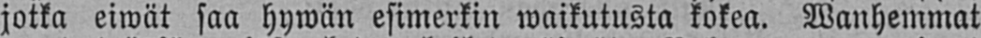jotka eiwät saa hywän esimerkin waikutusta kokea. Wanhemmat
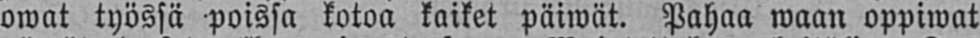owat työssä poissa kotoa kaiket päiwät. Pahaa waan oppiwat
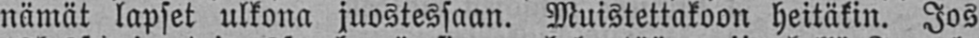nämät lapset ulkona juostessaan. Muistettakoon heitäkin. Jos
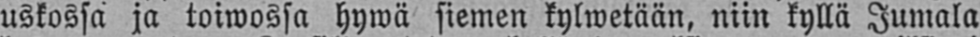uskossa ja toiwossa hywä siemen kylwetään, niin kyllä Jumala
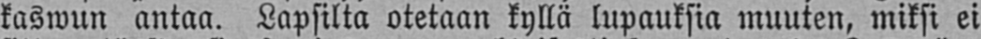kaswun antaa. Lapsilta otetaan kyllä lupauksia muuten, miksi ei
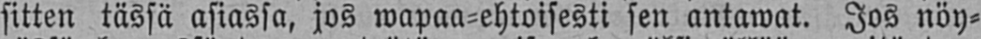sitten tässä asiassa, jos wapaa-ehtoisesti sen antawat. Jos nöy-
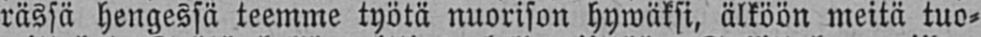rässä hengessä teemme työtä nuorison hywäksi, älköön meitä tuo-
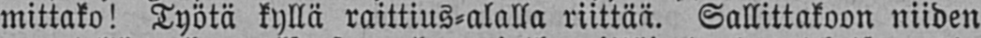mittako! Työtä kyllä raittius-alalla riittää. Sallittakoon niiden
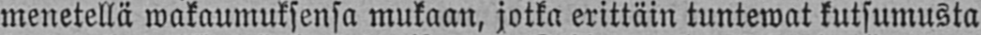menetellä wakaumuksensa mukaan, jotka erittäin tuntewat kutsumusta
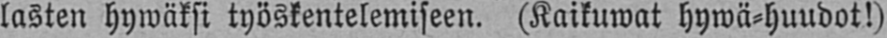lasten hywäksi työskentelemiseen. (Kaikuwat hywä-huudot!)
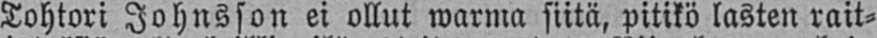Tohtori Johnsson ei ollut warma siitä, pitikö lasten rait-
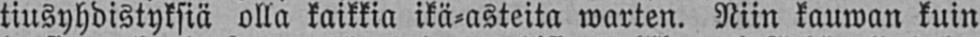tiusyhdistyksiä olla kaikkia ikä-asteita warten. Niin kauwan kuin
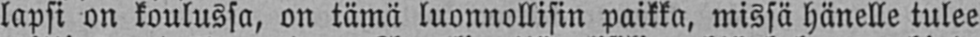lapsi on koulussa, on tämä luonnollisin paikka, missä hänelle tulee
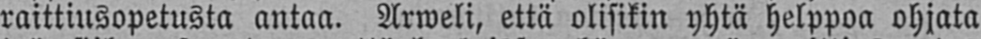raittiusopetusta antaa. Arweli, että olisikin yhtä helppoa ohjata
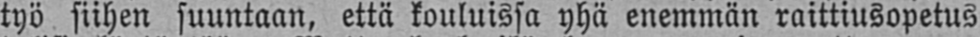työ siihen suuntaan, että kouluissa yhä enemmän raittiusopetus
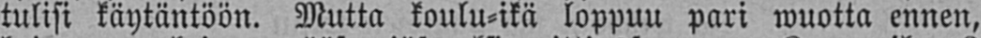tulisi käytäntöön. Mutta koulu-ikä loppuu pari wuotta ennen,
